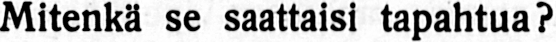Mitenkä se saattaisi tapahtua?
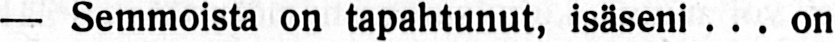— Semmoista on tapahtunut, isäseni ... on
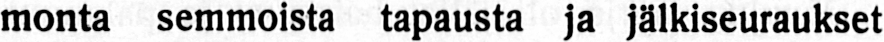monta semmoista tapausta ja jälkiseuraukset
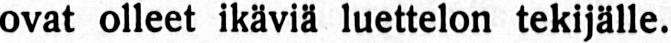ovat olleet ikäviä luettelon tekijälle.
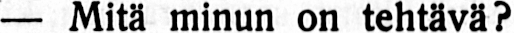— Mitä minun on tehtävä?
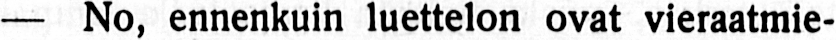— No, ennenkuin luettelon ovat vieraatmie-
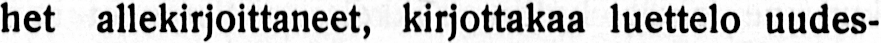het allekirjoittaneet, kirjottakaa luettelo uudes-
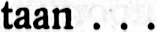taan . . .
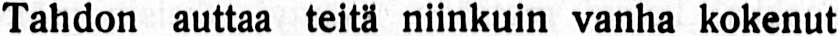Tahdon auttaa teitä niinkuin vanha kokenut
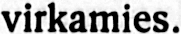virkamies.
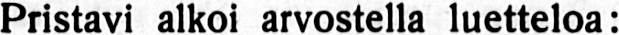Pristavi alkoi arvostella luetteloa:
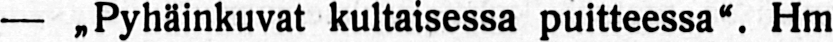— „Pyhäinkuvat kultaisessa puitteessa". Hm
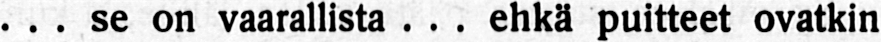. . . se on vaarallista . . . ehkä puitteet ovatkin
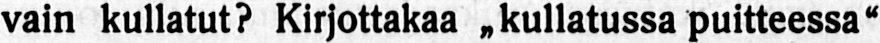vain kullatut? Kirjottakaa „kullatussa puitteessa"
